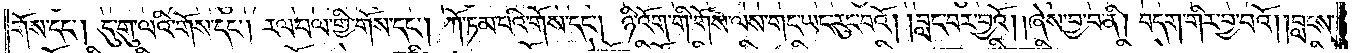གོས་དང༌། དུ་གུ་ལའི་གོས་དང༌། རལ་བལ་གྱི་གོས་དང༌། ཀོ་ཏམ་པའི་གོས་དང༌། ཉི་འོག་གི་གོས་ལས་གང་ཡང་རུང་བའོ། །བླང་བར་བྱའོ། །ཞེས་བྱ་བ་ནི། བདག་གིར་བྱ་བའོ། །བླངས་
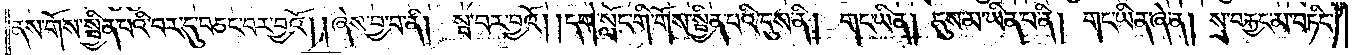ནས་གོས་སྦྱིན་པའི་བར་དུ་བཅང་བར་བྱའོ། །ཞེས་བྱ་བ་ནི། སྦ་བར་བྱའོ། །དགེ་སློང་གི་གོས་སྦྱིན་པའི་དུས་ནི། གང་ཡིན། དུས་མ་ཡིན་པ་ནི། གང་ཡིན་ཞེ་ན། སྲ་བརྐྱང་མ་བཏིང་
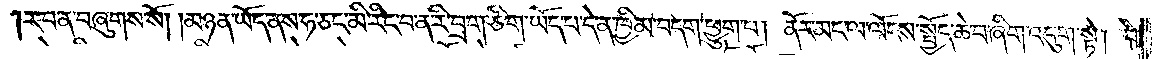ར་བ་ན་བཞུགས་སོ། །མཉན་ཡོད་ནས་ཧ་ཅང་མི་རིང་བ་ན་རི་བྲག་ཅིག་ཡོད་པ་དེ་ན་ཁྱིམ་བདག་ཕྱུག་པ། ནོར་མང་ལ་ལོངས་སྤྱོད་ཆེ་བ་ཞིག་འདུག་སྟེ། དེ་
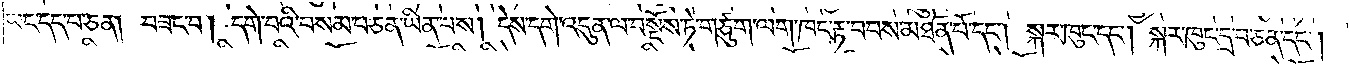ཡང་དད་པ་ཅན། བཟང་བ། དགེ་བའི་བསམ་པ་ཅན་ཡིན་པས། དེས་དགེ་འདུན་ལ་བསྔོས་ཏེ་གཙུག་ལག་ཁང་རྟ་བབས་མཐོན་པོ་དང༌། སྐར་ཁུང་དང༌། སྐར་ཁུང་དྲ་བ་ཅན་དང༌།
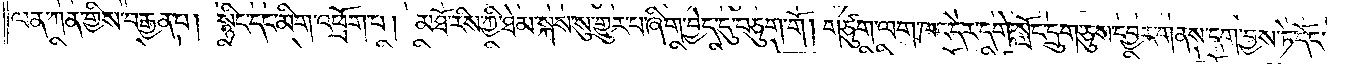ལན་ཀན་གྱིས་བརྒྱན་པ། སྙིང་དང་མིག་འཕྲོག་པ། མཐོ་རིས་ཀྱི་ཐེམ་སྐས་སུ་གྱུར་པ་ཞིག་བྱེད་དུ་བཅུག་གོ །གཙུག་ལག་ཁང་དེར་དགེ་སློང་དྲུག་ཅུས་དབྱར་གནས་དག་བྱས་ཏེ་དོང་
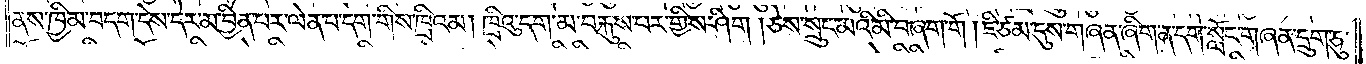ནས་ཁྱིམ་བདག་དེས་དེར་མ་བྱིན་པར་ལེན་པ་དག་གིས་ཁྲིའམ། ཁྲིའུ་དག་མ་བརྐུས་པར་གྱིས་ཤིག །ཅེས་སྲུང་མའི་མི་བཞག་གོ །ཇི་ཙམ་དུས་གཞན་ཞིག་ན་དགེ་སློང་གཞན་དྲུག་ཅུ་
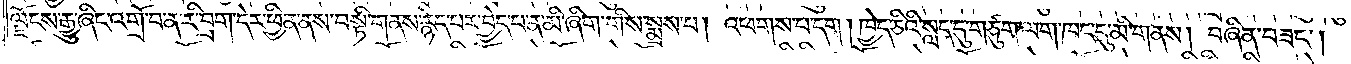ལྗོངས་རྒྱུ་ཞིང་འགྲོ་བ་ན་རི་བྲག་དེར་ཕྱིན་ནས་བསྟི་གནས་རྙེད་པར་བྱེད་པ་ན་མི་ཞིག་གིས་སྨྲས་པ། འཕགས་པ་དག །ཁྱེད་ཅིའི་སླད་དུ་གཙུག་ལག་ཁང་དུ་མི་གནས། བཞིན་བཟང༌།
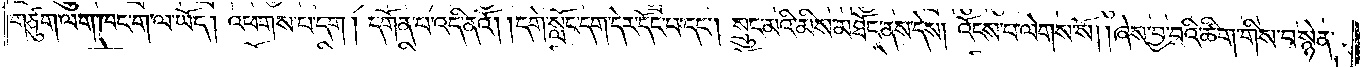གཙུག་ལག་ཁང་ག་ལ་ཡོད། འཕགས་པ་དག །དགོན་པ་འདི་ནའོ། །དགེ་སློང་དག་དེར་དོང་བ་དང༌། སྲུང་མའི་མིས་མཐོང་ནས་དེས། འོངས་པ་ལེགས་སོ། །ཞེས་བྱ་བའི་ཚིག་གིས་བསྙེན་
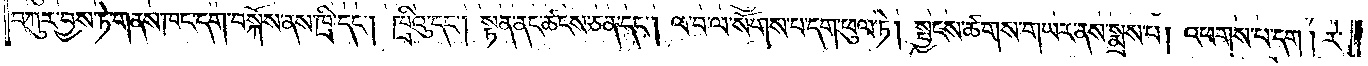བཀུར་བྱས་ཏེ་གནས་ཁང་དག་བསྐོས་ནས་ཁྲི་དང༌། ཁྲིའུ་དང༌། སྟན་ནང་ཚངས་ཅན་དང༌། ལ་བ་ལ་སོགས་པ་དག་ཕུལ་ཏེ། སྤྱངས་ཚགས་གཡར་ནས་སྨྲས་པ། འཕགས་པ་དག །རེ་
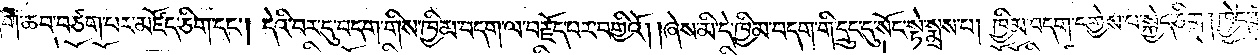ཞིག་ཆབ་བཅག་པར་མཛོད་ཅིག་དང༌། དེའི་བར་དུ་བདག་གིས་ཁྱིམ་བདག་ལ་བརྗོད་པར་བགྱིའོ། །ཞེས་མི་དེ་ཁྱིམ་བདག་གི་དྲུང་དུ་སོང་སྟེ་སྨྲས་པ། ཁྱིམ་བདག་དགྱེས་པ་སྐྱེད་ཅིག །ཁྱེད་ཀྱི་གཙུག་ལག་
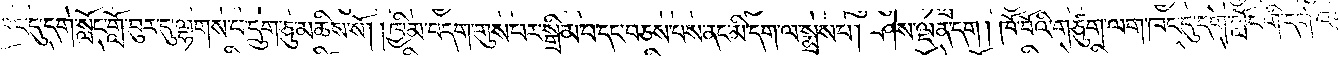ཁང་དུ་དགེ་སློང་གློ་བུར་དུ་ལྷགས་པ་དྲུག་ཅུ་མཆིས་སོ། །ཁྱིམ་བདག་གུས་པར་སྒྲིམ་པ་དང་བཅས་པས་ནང་མི་དག་ལ་སྨྲས་པ། ཤེས་ལྡན་དག །ཁོ་བོའི་གཙུག་ལག་ཁང་དུ་དགེ་སློང་གི་དགེ་འདུན་
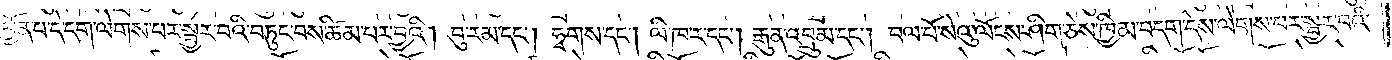བྱོན་པ་དེ་དག་ལེགས་པར་སྦྱར་བའི་བཏུང་བས་ཚིམ་པར་བྱའི། །བུ་རམ་དང༌། ཧྭགས་དང༌། ལི་ཁ་ར་དང༌། རྒུན་འབྲུམ་དང༌། བལ་པོ་སེའུ་ལོངས་ཤིག་ཅེས་ཁྱིམ་བདག་དེས་ལེགས་པར་སྦྱར་བའི་
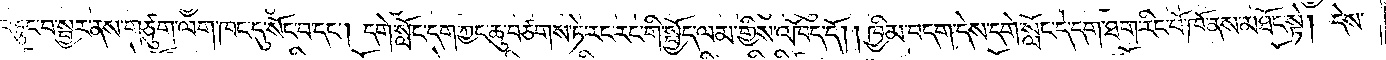བཏུང་བ་སྦྱར་ནས་གཙུག་ལག་ཁང་དུ་སོང་བ་དང༌། དགེ་སློང་དག་ཀྱང་ཆུ་བཙགས་ཏེ་རང་རང་གི་སྤྱོད་ལམ་གྱིས་འཁོད་དོ། །ཁྱིམ་བདག་དེས་དགེ་སློང་དེ་དག་ཐག་རིང་པོ་ཁོ་ནས་མཐོང་སྟེ། དེས་
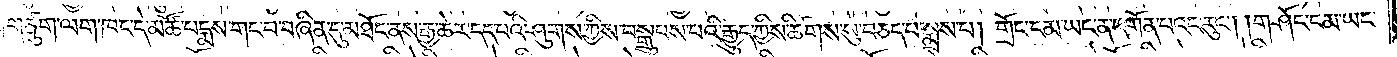གཙུག་ལག་ཁང་དེ་མཚོ་པདྨས་གང་བ་བཞིན་དུ་མཐོང་ནས་རྒྱ་ཆེར་དད་པའི་ཤུགས་ཀྱིས་བསྒྲུབས་པའི་རྒྱུད་ཀྱིས་ཚིགས་སུ་བཅད་པ་སྨྲས་པ། གྲོང་ངམ་ཡང་ན་དགོན་པའང་རུང༌། །གཤོང་ངམ་ཡང་
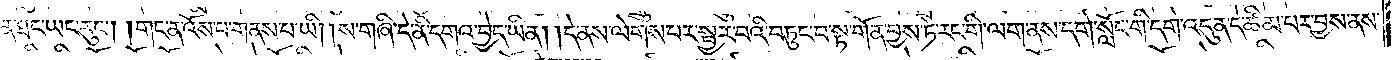ན་ཐང་ཡང་རུང༌། གང་ན་འོས་པ་གནས་པ་ཡི། །ས་གཞི་དེ་ནི་དགའ་བྱེད་ཡིན། །དེ་ནས་ལེགས་པར་སྦྱར་བའི་བཏུང་བ་སྟ་གོན་བྱས་ཏེ་རང་གི་ལག་ནས་དགེ་སློང་གི་དགེ་འདུན་དེ་ཚིམ་པར་བྱས་ནས་
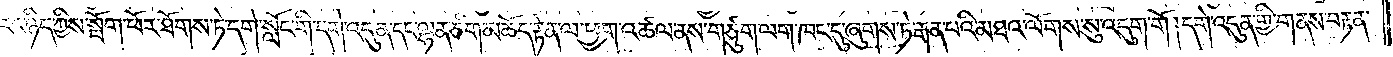རང་ཉིད་ཀྱིས་སྤོག་ཕོར་ཐོགས་ཏེ་དགེ་སློང་གི་དགེ་འདུན་དང་ལྷན་ཅིག་མཆོད་རྟེན་ལ་ཕྱག་འཚལ་ནས་གཙུག་ལག་ཁང་དུ་ཞུགས་ཏེ་རྒན་པའི་མཐའ་ལོགས་སུ་འདུག་གོ །དགེ་འདུན་གྱི་གནས་བརྟན་
